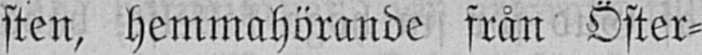sten, hemmahörande från Öster-
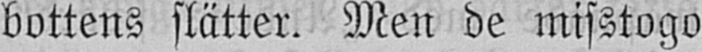bottens slätter. Men de misstogo
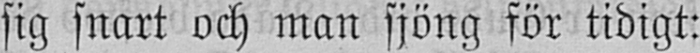sig snart och man sjöng för tidigt:
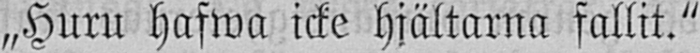„Huru hafwa icke hjältarna fallit."
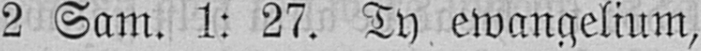2 Sam. 1: 27. Ty ewangelium,
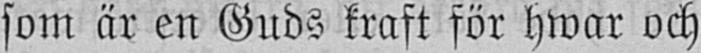som är en Guds kraft för hwar och
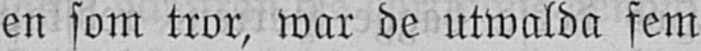en som tror, war de utwalda fem
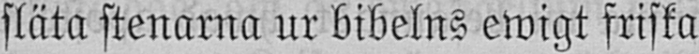släta stenarna ur bibelns ewigt friska
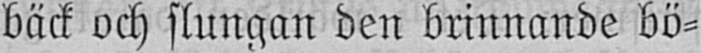bäck och slungan den brinnande bö-
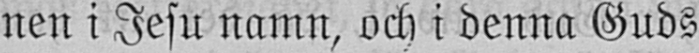nen i Jesu namn, och i denna Guds
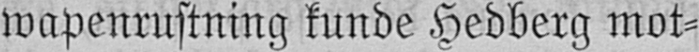wapenrustning kunde Hedberg mot-
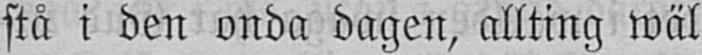stå i den onda dagen, allting wäl
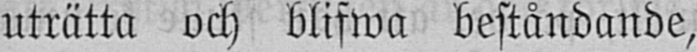uträtta och blifwa beståndande,
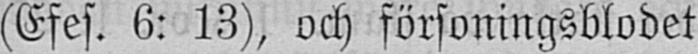(Efes. 6: 13), och försoningsblodet
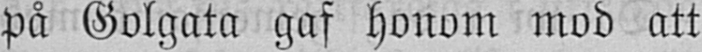på Golgata gaf honom mod att
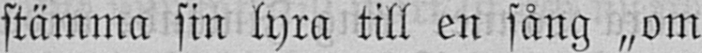stämma sin lyra till en sång „om
